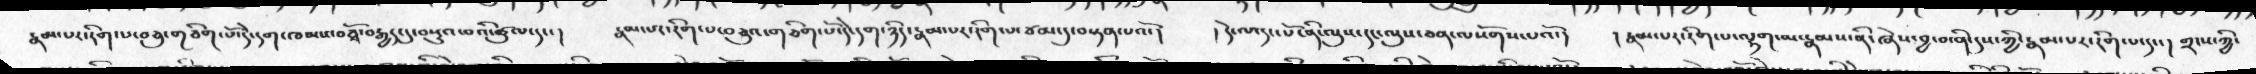རྣམ་པར་རིག་པ་བཅུ་གཅིག་པོ་དེ་དག་ཁམས་བཅྭོ་བརྒྱད་དུ་བསྡུའ་བའི་ཚུལ་དང་།  རྣམ་པར་རིག་པ་བཅུའ་གཅིག་པོ་དེ་དག་ཉིད་རྣམ་པར་རིག་པ་ཙམ་དུ་བསྟན་པའོ་།  ། དེ་ལ་དང་པོ་ནི་ལུས་དང་ལུས་ཅན་ལསོགས་པའོ་།  ། རྣམ་པར་རིག་པ་ལྷག་མ་རྣམས་ནི་ཞེས་བྱ་བ་ནི་དུས་ཀྱི་རྣམ་པར་རིག་པ་དང་།  གྲངས་ཀྱི་
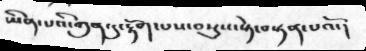ཡིན་པའི་ཀུན་དུ་རྟོག་པས་བསྡུས་སྟེ་བསྟན་པའོ་།
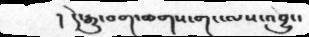།  དེ་རྒྱུ་བག་ཆགས་གང་ལས་འབྱུང་
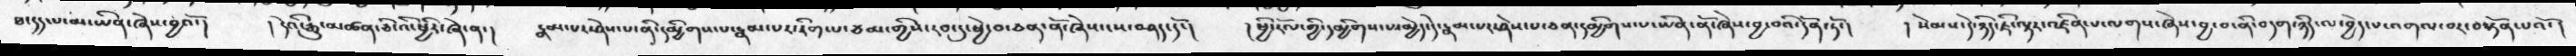ཐ་དད་པ་མ་ཡིན་ཞེས་བྱའོ་།   ། དེའི་རྒྱུ་མཚན་ཅི་འི་ཕྱིར་ཞེ་ན་།  རྣམ་པར་ཤེས་པ་ནི་དམྱིགས་པ་རྣམ་པར་རིག་པ་ཙམ་གྱིས་རབ་དུ་ཕྱེ་བ་ཅན་ནོ་ཞེས་ངས་བཤད་དོ་།   ། ཕྱི་རོལ་གྱི་དམྱིགས་པ་མྱེད་དེ་རྣམ་པར་ཤེས་པ་ཅན་དམིགས་པ་ཡིན་ནོ་ཞེས་བྱ་བའི་དོན་ཏོ་།  ། སེམས་དེ་ཉིད་ཇི་ལྟར་འཛིན་པ་ལགས་ཞེས་བྱ་བ་ནི་བདག་ཉིད་ལ་བྱེད་པ་འགལ་བར་བསྟོན་པའོ་།
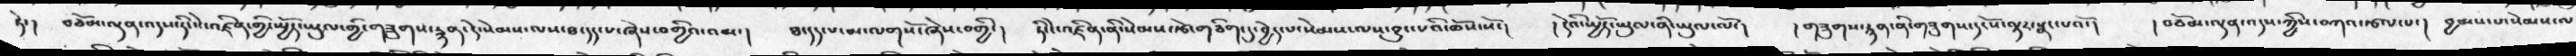ཏེ་།   བཅོམ་ལྡན་འདས་ཏིང་ངེ་འཛིན་གྱི་སྤྱོད་ཡུལ་གྱི་གཟུགས་རྙན་དེ་སེམས་ལས་ཐ་དད་པ་ཞེས་བགྱིའ་འམ་།     ཐ་དད་པ་མ་ལགསོ་ཞེས་བགྱི་།    ཏིང་ངེ་འཛིན་ནི་སེམས་རྩེ་གཅིག་དུ་བྱེད་པ་སེམས་ལས་བྱུང་པའི་ཆོས་སོ་།    ། དེའི་ཡྱོད་ཡུལ་ནི་ཡུལ་ལོ་།    གཟུགས་རྙན་ནི་གཟུགས་དངོས་ལྟར་སྣང་པའོ་།    ། བཅོམ་ལྡན་འདས་ཀྱིས་བཀའ་རྩལ་པ་།  བྱམས་པ་སེམས་ལ
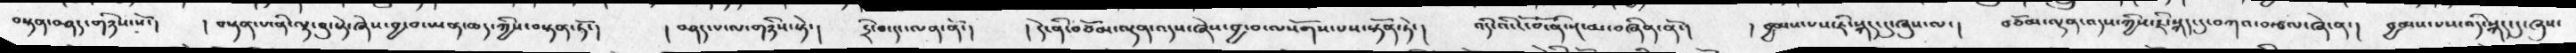བསྟན་བཤད་གཉིས་སོ་།   ། བསྟན་པ་ནི་ལྟ་བུ་སྟེ་ཞེས་བྱ་བ་ཡན་ཆད་ཀྱིས་བསྟན་ཏོ་།   ། བཤད་པ་ལ་གཉིས་སྟེ་།     དྲི་བ་དང་ལན་ནོ་།      ། དེ་ནི་བཅོམ་ལྡན་འདས་ཞེས་བྱ་བ་ལསོགས་པས་སྟོན་ཏེ་།     འདི་འི་ངོ་བོ་ནི་སྔ་མ་བཞིན་ནོ་།      ། བྱམས་པས་ཇི་སྐད་དུ་ཞུས་ལ་།     བཅོམ་ལྡན་འདས་ཀྱིས་ཇི་སྐད་དུ་བཀའ་བརྩལ་ཞེ་ན་།   བྱམས་པས་འདི་སྐད་དུ་ཞུས་
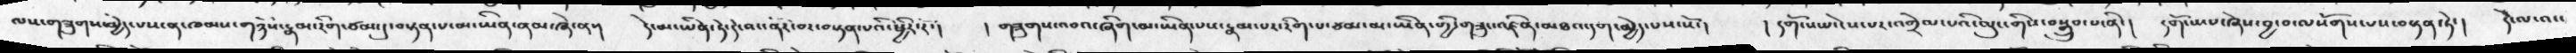ལས་གཟུགས་མྱེད་པས་ན་ཁམས་གཉིས་རྣམ་རིག་ཙམ་དུ་བསྟན་པ་མ་ཡིན་ནམ་ཞེ་ན་།     དེ་མ་ཡིན་ཏེ་དེ་མ་ནོར་བར་བསྟན་པའི་ཕྱིར་རོ་།    ། གཟུགས་འབའ་ཞིག་མ་ཡིན་པས་རྣམ་པར་རིག་པ་ཙམ་མ་ཡིན་གྱི་གཟུང་འཛིན་མཐའ་དག་མྱེད་པས་སོ་།       ། དགོངས་པ་ངེས་པར་འགྲེལ་པའི་ལུང་གིས་བསྒྲུབ་པ་ནི་།     དགོངས་པ་ཞེས་བྱ་བ་ལསོགས་པས་བསྟན་ཏེ་།    དེ་ལ་འང་
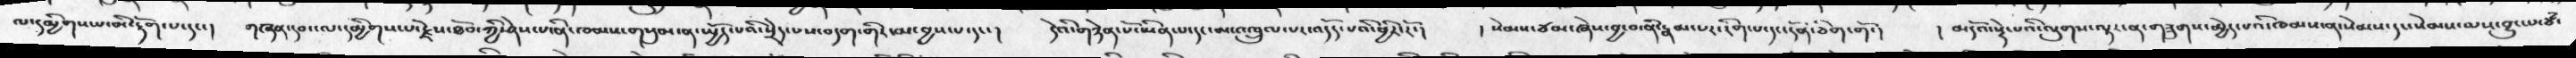ལ་དམྱིགས་པ་མི་རྟོག་པ་དང་།    གཞན་དབང་ལ་དམྱིགས་པ་རྗེས་ཐོབ་ཀྱི་ཤེས་པ་ནི་ཁམས་གསུམ་ན་ཡྱོད་པའི་སྲིད་པས་བདག་གིར་མ་བྱས་པ་དང་།      དེའི་གཉེན་པོ་ཡིན་པ་དང་མ་འཁྲུལ་པ་འདོད་པའི་ཕྱིར་རོ་།     ། སེམས་ཙམ་ཞེས་བྱ་བ་ནི་རྣམ་པར་རིག་པ་དང་དོན་ཅིག་གོ་།      ། མདོའ་སྡེ་པའི་ལུགས་ལྟར་ན་གཟུགས་མྱེད་པའི་ཁམས་ན་སེམས་དང་སེམས་ལས་བྱུང་པ་ཙཾ་
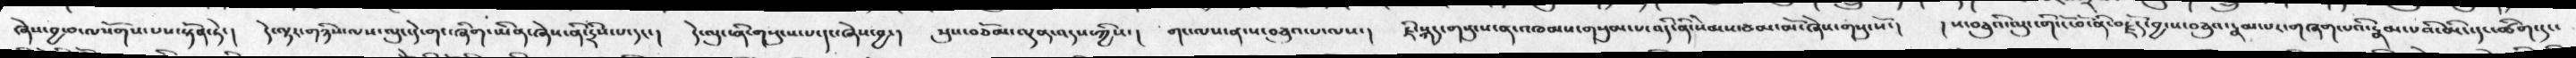ཞེས་བྱ་བ་ལསོགས་པས་སྟོན་ཏེ་།  དེ་ལྟར་གཉིས་ལས་ལུང་དེ་གང་ཞིག་ཡིན་ཞེས་ནི་དྲིས་པ་དང་།  དེ་ལུང་ནི་གསུངས་པ་དང་ཞེས་བྱ་།  སུས་བཅོམ་ལྡན་འདས་ཀྱིས་།  གང་ལས་ན་ས་བཅུའ་པ་ལས་།  ཇི་སྐད་གསུངས་ན་ཁམས་གསུམ་པ་འདི་ནི་སེམས་ཙམ་མོ་ཞེས་གསུངསོ་།  །ས་བཅུའི་ལུང་གི་ངོ་བོ་ནི་བརྗོད་བྱ་ས་བཅུའ་རྣམ་པར་གཞག་པའི་རྣམ་པའི་མིང་དང་ཚིག་དང་
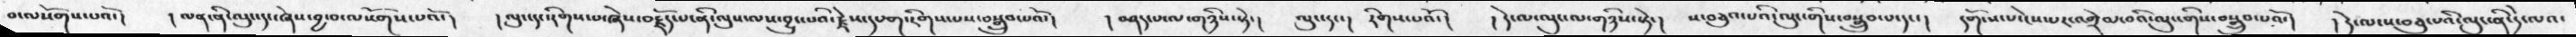བ་ལསོགས་པའོ་།  །ལན་ནི་ལུང་དང་ཞེས་བྱ་བ་ལསོགས་པའོ་།  །ལུང་དང་རིགས་པ་ཞེས་བརྗོད་པ་ནི་ལུས་ལས་བྱུང་པའི་རྗེས་དཔག་རིགས་པས་བསྒྲུབ་པའོ་།   །བཤད་པ་ལ་གཉིས་སྟེ་།  ལུང་དང་།  རིགས་པའོ་།   །དེ་ལ་ལུང་ལ་གཉིས་སྟེ་།  ས་བཅུའ་པའི་ལུང་གིས་བསྒྲུབ་པ་དང་།  དགོངས་པ་ངེས་པར་འགྲེལ་བའི་ལུང་གིས་བསྒྲུབ་པའོ་།  །དེ་ལ་ས་བཅུའ་པའི་ལུང་ནི་དེ་ལའ་
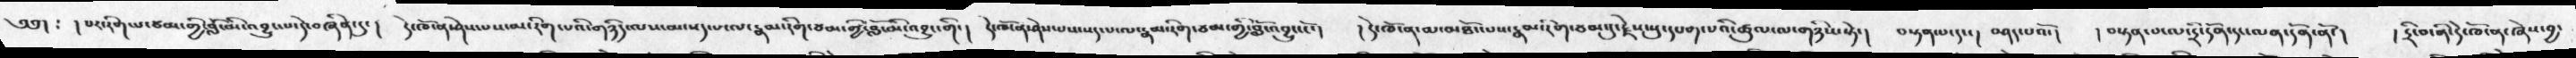༄༅།  ༴  །པར་རིག་པ་ཙམ་གྱི་བློ་མི་འབྱུང་པ་དེ་བཞིན་དུ་།   དེ་ཁོ་ན་ཤེས་པས་མ་རིག་པའི་གཉིད་ལས་མ་སད་པ་ལ་རྣམ་རིག་ཙམ་གྱི་བློ་མི་འབྱུང་གི་།  དེ་ཁོ་ན་ཤེས་པས་སད་པ་ལ་རྣམ་རིག་ཙམ་གྱི་ཐོ་འབྱུང་ངོ་།  དེ་ཁོ་ན་མ་མཐོང་པས་རྣམ་རིག་ཙམ་དུ་རྗེས་སུ་དཔག་པའི་ཚུལ་ལ་གཉིས་སྟེ་།  བསྟན་པ་དང་།  བཤད་པའོ་།   །བསྟན་པ་ལ་དྲི་དོན་དང་ལན་དོན་ནོ་།  །དྲི་བ་ནི་དེ་ཁོ་ན་ཞེས་བྱ་
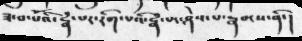ཟ་བ་པོའི་རྣཾ་པར་རིག་པའི་རྣཾ་པར་ཤེས་པ་རྣམ་པ་ནི་།
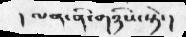། ལན་ནི་གཉིས་སྟེ་།
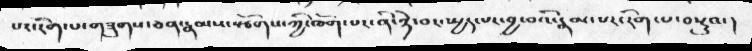པར་རིག་པ་གཟུགས་ཅན་རྣམས་སྩོགས་ཀྱི་ཆོག་པར་ནི་ཉེ་བར་སྤྱད་པར་བྱ་བའི་རྣམ་པར་རིག་པ་བསྡུའ་།
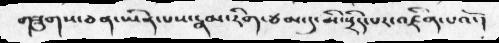གཟུགས་ཅན་ཡིན་པས་རྣམ་རིག་ཙམ་དུ་མི་སྲིད་པར་འཛིན་པའོ་།
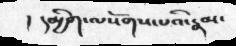། དམྱིག་ལསོགས་པའི་རྣམ་
